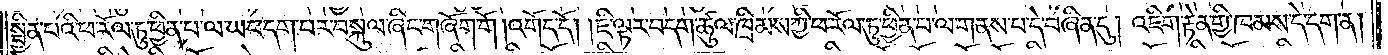སྦྱིན་པའི་ཕ་རོལ་ཏུ་ཕྱིན་པ་ལ་ཡང་དག་པར་བསྐུལ་ཞིང་གཞོག་གོ །འགོད་དོ། །ཇི་ལྟར་བདག་ཚུལ་ཁྲིམས་ཀྱི་ཕ་རོལ་ཏུ་ཕྱིན་པ་ལ་གནས་པ་དེ་བཞིན་དུ། འཇིག་རྟེན་གྱི་ཁམས་དེ་དག་ན།
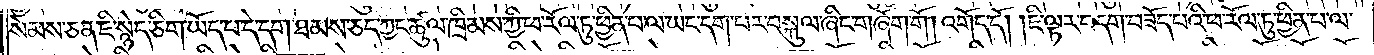སེམས་ཅན་ཇི་སྙེད་ཅིག་ཡོད་པ་དེ་དག་ཐམས་ཅད་ཀྱང་ཚུལ་ཁྲིམས་ཀྱི་ཕ་རོལ་ཏུ་ཕྱིན་པ་ལ་ཡང་དག་པར་བསྐུལ་ཞིང་གཞོག་གོ །འགོད་དོ། །ཇི་ལྟར་བདག་བཟོད་པའི་ཕ་རོལ་ཏུ་ཕྱིན་པ་ལ་
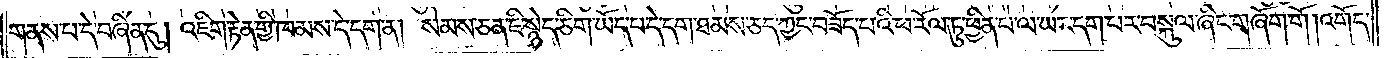གནས་པ་དེ་བཞིན་དུ། འཇིག་རྟེན་གྱི་ཁམས་དེ་དག་ན། སེམས་ཅན་ཇི་སྙེད་ཅིག་ཡོད་པ་དེ་དག་ཐམས་ཅད་ཀྱང་བཟོད་པའི་ཕ་རོལ་ཏུ་ཕྱིན་པ་ལ་ཡང་དག་པར་བསྐུལ་ཞིང་གཞོག་གོ །འགོད་
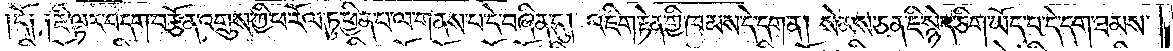དོ༑ ༑ཇི་ལྟར་བདག་བརྩོན་འགྲུས་ཀྱི་ཕ་རོལ་ཏུ་ཕྱིན་པ་ལ་གནས་པ་དེ་བཞིན་དུ། འཇིག་རྟེན་གྱི་ཁམས་དེ་དག་ན། སེམས་ཅན་ཇི་སྙེད་ཅིག་ཡོད་པ་དེ་དག་ཐམས་
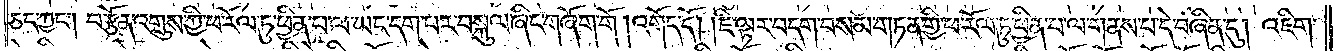ཅད་ཀྱང༌། བརྩོན་འགྲུས་ཀྱི་ཕ་རོལ་ཏུ་ཕྱིན་པ་ལ་ཡང་དག་པར་བསྐུལ་ཞིང་གཞོག་གོ །འགོད་དོ། །ཇི་ལྟར་བདག་བསམ་གཏན་གྱི་ཕ་རོལ་ཏུ་ཕྱིན་པ་ལ་གནས་པ་དེ་བཞིན་དུ། འཇིག་
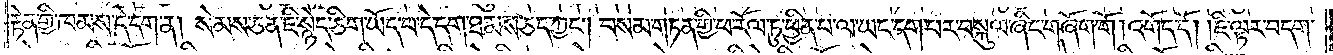རྟེན་གྱི་ཁམས་དེ་དག་ན། སེམས་ཅན་ཇི་སྙེད་ཅིག་ཡོད་པ་དེ་དག་ཐམས་ཅད་ཀྱང༌། བསམ་གཏན་གྱི་ཕ་རོལ་ཏུ་ཕྱིན་པ་ལ་ཡང་དག་པར་བསྐུལ་ཞིང་གཞོག་གོ །འགོད་དོ། །ཇི་ལྟར་བདག་
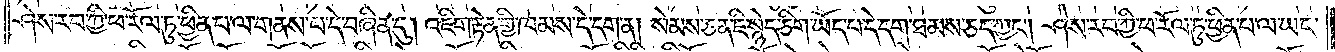ཤེས་རབ་ཀྱི་ཕ་རོལ་ཏུ་ཕྱིན་པ་ལ་གནས་པ་དེ་བཞིན་དུ། འཇིག་རྟེན་གྱི་ཁམས་དེ་དག་ན། སེམས་ཅན་ཇི་སྙེད་ཅིག་ཡོད་པ་དེ་དག་ཐམས་ཅད་ཀྱང༌། ཤེས་རབ་ཀྱི་ཕ་རོལ་ཏུ་ཕྱིན་པ་ལ་ཡང་
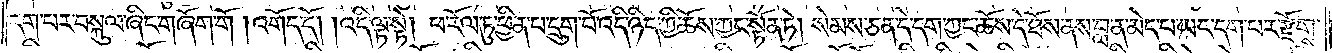དག་པར་བསྐུལ་ཞིང་གཞོག་གོ །འགོད་དོ། །འདི་ལྟ་སྟེ། ཕ་རོལ་ཏུ་ཕྱིན་པ་དྲུག་པོ་འདི་ཉིད་ཀྱི་ཆོས་ཀྱང་སྟོན་ཏེ། སེམས་ཅན་དེ་དག་ཀྱང་ཆོས་དེ་ཐོས་ནས་བླ་ན་མེད་པ་ཡང་དག་པར་རྫོགས་
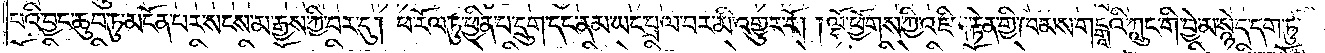པའི་བྱང་ཆུབ་ཏུ་མངོན་པར་སངས་མ་རྒྱས་ཀྱི་བར་དུ། ཕ་རོལ་ཏུ་ཕྱིན་པ་དྲུག་དང་ནམ་ཡང་བྲལ་བར་མི་འགྱུར་རོ། །ལྷོ་ཕྱོགས་ཀྱི་འཇིག་རྟེན་གྱི་ཁམས་གངྒཱའི་ཀླུང་གི་བྱེ་མ་སྙེད་དག་ཏུ་
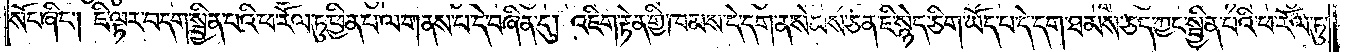སོང་ཞིང༌། ཇི་ལྟར་བདག་སྦྱིན་པའི་ཕ་རོལ་ཏུ་ཕྱིན་པ་ལ་གནས་པ་དེ་བཞིན་དུ། འཇིག་རྟེན་གྱི་ཁམས་དེ་དག་ན་སེམས་ཅན་ཇི་སྙེད་ཅིག་ཡོད་པ་དེ་དག་ཐམས་ཅད་ཀྱང་སྦྱིན་པའི་ཕ་རོལ་ཏུ་
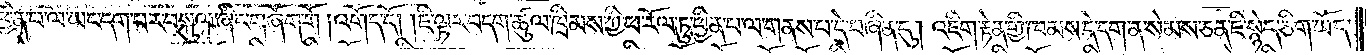ཕྱིན་པ་ལ་ཡང་དག་པར་བསྐུལ་ཞིང་གཞོག་གོ །འགོད་དོ། ། ཇི་ལྟར་བདག་ཚུལ་ཁྲིམས་ཀྱི་ཕ་རོལ་ཏུ་ཕྱིན་པ་ལ་གནས་པ་དེ་བཞིན་དུ། འཇིག་རྟེན་གྱི་ཁམས་དེ་དག་ན། སེམས་ཅན་ཇི་སྙེད་ཅིག་ཡོད་
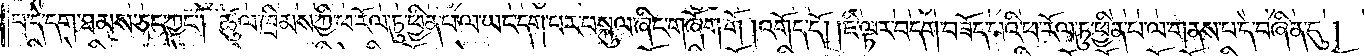པ་དེ་དག་ཐམས་ཅད་ཀྱང༌། ཚུལ་ཁྲིམས་ཀྱི་ཕ་རོལ་ཏུ་ཕྱིན་པ་ལ་ཡང་དག་པར་བསྐུལ་ཞིང་གཞོག་གོ །འགོད་དོ། །ཇི་ལྟར་བདག་བཟོད་པའི་ཕ་རོལ་ཏུ་ཕྱིན་པ་ལ་གནས་པ་དེ་བཞིན་དུ།
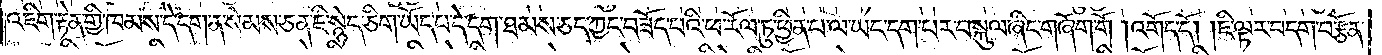འཇིག་རྟེན་གྱི་ཁམས་དེ་དག་ན་སེམས་ཅན་ཇི་སྙེད་ཅིག་ཡོད་པ་དེ་དག་ཐམས་ཅད་ཀྱང་བཟོད་པའི་ཕ་རོལ་ཏུ་ཕྱིན་པ་ལ་ཡང་དག་པར་བསྐུལ་ཞིང་གཞོག་གོ །འགོད་དོ། །ཇི་ལྟར་བདག་བརྩོན་
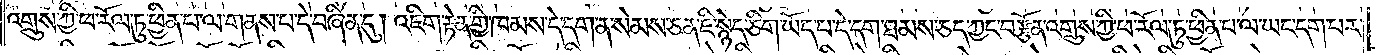འགྲུས་ཀྱི་ཕ་རོལ་ཏུ་ཕྱིན་པ་ལ་གནས་པ་དེ་བཞིན་དུ། འཇིག་རྟེན་གྱི་ཁམས་དེ་དག་ན་སེམས་ཅན་ཇི་སྙེད་ཅིག་ཡོད་པ་དེ་དག་ཐམས་ཅད་ཀྱང་བརྩོན་འགྲུས་ཀྱི་ཕ་རོལ་ཏུ་ཕྱིན་པ་ལ་ཡང་དག་པར་
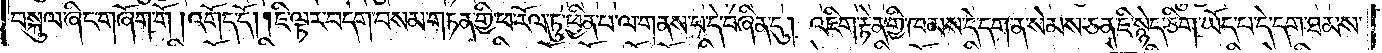བསྐུལ་ཞིང་གཞོག་གོ །འགོད་དོ། །ཇི་ལྟར་བདག་བསམ་གཏན་གྱི་ཕ་རོལ་ཏུ་ཕྱིན་པ་ལ་གནས་པ་དེ་བཞིན་དུ། འཇིག་རྟེན་གྱི་ཁམས་དེ་དག་ན། སེམས་ཅན་ཇི་སྙེད་ཅིག་ཡོད་པ་དེ་དག་ཐམས་
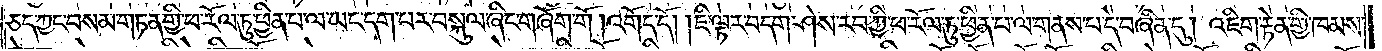ཅད་ཀྱང་བསམ་གཏན་གྱི་ཕ་རོལ་ཏུ་ཕྱིན་པ་ལ་ཡང་དག་པར་བསྐུལ་ཞིང་གཞོག་གོ །འགོད་དོ། །ཇི་ལྟར་བདག་ཤེས་རབ་ཀྱི་ཕ་རོལ་ཏུ་ཕྱིན་པ་ལ་གནས་པ་དེ་བཞིན་དུ། འཇིག་རྟེན་གྱི་ཁམས་
